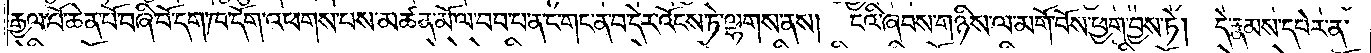རྒྱལ་པོ་ཆེན་པོ་བཞི་པོ་དག་ཁ་དོག་འཕགས་པས་མཚན་མོ་ལ་བབ་པ་ནང་གང་ན་བ་དེར་འོངས་ཏེ་ལྷགས་ནས། ངའི་ཞབས་གཉིས་ལ་མགོ་བོས་ཕྱག་བྱས་ཏེ།  དེ་རྣམས་དཔེར་ན་
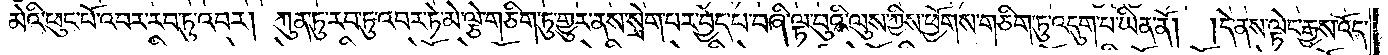མེའི་ཕུང་པོ་འབར་རབ་ཏུ་འབར། ཀུན་ཏུ་རབ་ཏུ་འབར་ཏེ་མེ་ལྕེ་གཅིག་ཏུ་གྱུར་ནས་སྲེག་པར་བྱེད་པ་བཞི་ལྟ་བུའི་ལུས་ཀྱིས་ཕྱོགས་གཅིག་ཏུ་འདུག་པ་ཡིན་ནོ། །དེ་ནས་ལྟེང་རྒྱས་འོད་
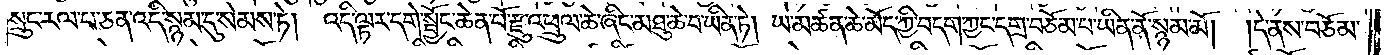སྲུང་རལ་པ་ཅན་འདི་སྙམ་དུ་སེམས་ཏེ། འདི་ལྟར་དགེ་སྦྱོང་ཆེན་པོ་རྫུ་འཕྲུལ་ཆེ་ཞིང་མཐུ་ཆེ་བ་ཡིན་ཏེ། ཡ་མཚན་ཆེ་མོད་ཀྱི་བདག་ཀྱང་དགྲ་བཅོམ་པ་ཡིན་ནོ་སྙམ་མོ། །དེ་ནས་བཅོམ་
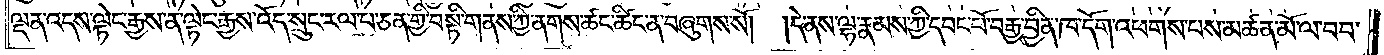ལྡན་འདས་ལྟེང་རྒྱས་ན་ལྟེང་རྒྱས་འོད་སྲུང་རལ་པ་ཅན་གྱི་བསྟི་གནས་ཀྱི་ནགས་ཚང་ཚིང་ན་བཞུགས་སོ།  །དེ་ནས་ལྷ་རྣམས་ཀྱི་དབང་པོ་བརྒྱ་བྱིན་ཁ་དོག་འཕགས་པས་མཚན་མོ་ལ་བབ་
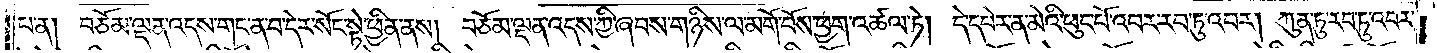པ་ན། བཅོམ་ལྡན་འདས་གང་ན་བ་དེར་སོང་སྟེ་ཕྱིན་ནས།  བཅོམ་ལྡན་འདས་ཀྱི་ཞབས་གཉིས་ལ་མགོ་བོས་ཕྱག་འཚལ་ཏེ། དེ་དཔེར་ན་མེའི་ཕུང་པོ་འབར་རབ་ཏུ་འབར། ཀུན་ཏུ་རབ་ཏུ་འབར་
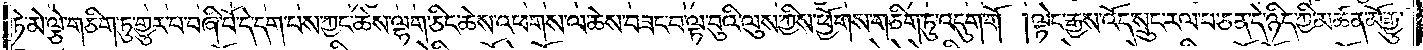ཏེ་མེ་ལྕེ་གཅིག་ཏུ་གྱུར་པ་བཞི་པོ་དེ་དག་པས་ཀྱང་ཆེས་ལྷག་ཅིང་ཆེས་འཕགས་ལ་ཆེས་བཟང་བ་ལྟ་བུའི་ལུས་ཀྱིས་ཕྱོགས་གཅིག་ཏུ་འདུག་གོ །ལྟེང་རྒྱས་འོད་སྲུང་རལ་པ་ཅན་དེ་ཉིད་ཀྱི་མཚན་མོ་རྒྱུ་
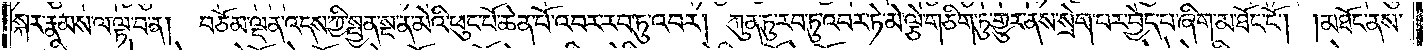སྐར་རྣམས་ལ་ལྟ་བ་ན། བཅོམ་ལྡན་འདས་ཀྱི་སྤྱན་སྔ་ན་མེའི་ཕུང་པོ་ཆེན་པོ་འབར་རབ་ཏུ་འབར། ཀུན་ཏུ་རབ་ཏུ་འབར་ཏེ་མེ་ལྕེ་གཅིག་ཏུ་གྱུར་ནས་སྲེག་པར་བྱེད་པ་ཞིག་མཐོང་ངོ༌། །མཐོང་ནས་
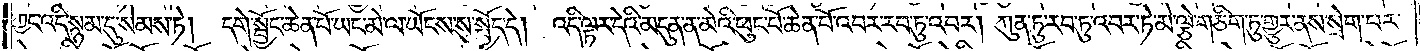ཀྱང་འདི་སྙམ་དུ་སེམས་ཏེ། དགེ་སྦྱོང་ཆེན་པོ་ཡང་མེ་ལ་ཡོངས་སུ་སྤྱོད་དེ། འདི་ལྟར་དེའི་མདུན་ན་མེའི་ཕུང་པོ་ཆེན་པོ་འབར་རབ་ཏུ་འབར། ཀུན་དུ་རབ་ཏུ་འབར་ཏེ་མེ་ལྕེ་གཅིག་ཏུ་གྱུར་ནས་སྲེག་པར་
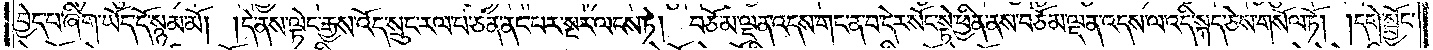བྱེད་པ་ཞིག་ཡོད་དོ་སྙམ་མོ། །དེ་ནས་ལྟེང་རྒྱས་འོད་སྲུང་རལ་པ་ཅན་ནང་པར་སྔར་ལངས་ཏེ། བཅོམ་ལྡན་འདས་གང་ན་བ་དེར་སོང་སྟེ་ཕྱིན་ནས་བཅོམ་ལྡན་འདས་ལ་འདི་སྐད་ཅེས་གསོལ་ཏོ། །དགེ་སྦྱོང་
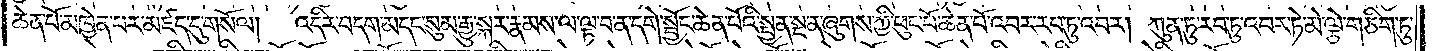ཆེན་པོ་མཁྱེན་པར་མཛད་དུ་གསོལ།   འདིར་བདག་མདང་སུམ་རྒྱུ་སྐར་རྣམས་ལ་ལྟ་བ་ན་དགེ་སྦྱོང་ཆེན་པོའི་སྤྱན་སྔ་ན་ཞུགས་ཀྱི་ཕུང་པོ་ཆེན་པོ་འབར་རབ་ཏུ་འབར། ཀུན་ཏུ་རབ་ཏུ་འབར་ཏེ་མེ་ལྕེ་གཅིག་ཏུ་
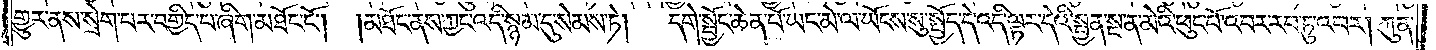གྱུར་ནས་སྲེག་པར་བགྱིད་པ་ཞིག་མཐོང་ངོ༌། །མཐོང་ནས་ཀྱང་འདི་སྙམ་དུ་སེམས་ཏེ།  དགེ་སྦྱོང་ཆེན་པོ་ཡང་མེ་ལ་ཡོངས་སུ་སྤྱོད་དེ་འདི་ལྟར་དེའི་སྤྱན་སྔ་ན་མེའི་ཕུང་པོ་འབར་རབ་ཏུ་འབར། ཀུན་
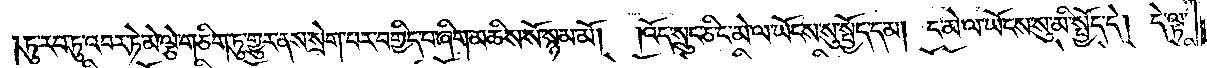།ཏུ་རབ་ཏུ་འབར་ཏེ་མེ་ལྕེ་གཅིག་ཏུ་གྱུར་ནས་སྲེག་པར་བགྱིད་པ་ཞིག་མཆིས་སོ་སྙམ་མོ།  །འོད་སྲུང་ཅི་ང་མེ་ལ་ཡོངས་སུ་སྤྱོད་དམ། ང་མེ་ལ་ཡོངས་སུ་མི་སྤྱོད་དེ། དེ་ལྟ་
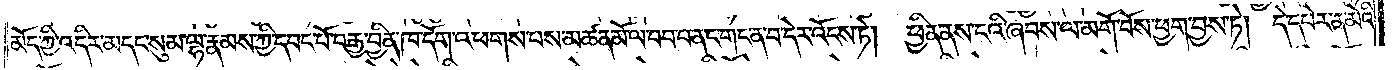མོད་ཀྱི་འདིར་མདང་སུམ་ལྷ་རྣམས་ཀྱི་དབང་པོ་བརྒྱ་བྱིན་ཁ་དོག་འཕགས་པས་མཚན་མོ་ལ་བབ་པ་ནང་གང་ན་བ་དེར་འོངས་ཏེ། ཕྱིན་ནས་ངའི་ཞབས་ལ་མགོ་བོས་ཕྱག་བྱས་ཏེ། དེ་དཔེར་ན་མེའི་
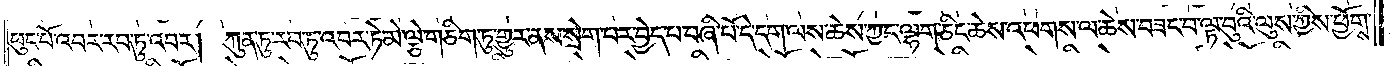ཕུང་པོ་འབར་རབ་ཏུ་འབར། ཀུན་ཏུ་རབ་ཏུ་འབར་ཏེ་མེ་ལྕེ་གཅིག་ཏུ་གྱུར་ནས་སྲེག་པར་བྱེད་པ་བཞི་པོ་དེ་དག་ལས་ཆེས་ཀྱང་ལྷག་ཅིང་ཆེས་འཕགས་ལ་ཆེས་བཟང་བ་ལྟ་བུའི་ལུས་ཀྱིས་ཕྱོགས་
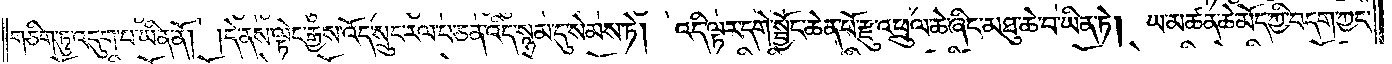གཅིག་ཏུ་འདུག་པ་ཡིན་ནོ། །དེ་ནས་ལྟེང་རྒྱས་འོད་སྲུང་རལ་པ་ཅན་འདི་སྙམ་དུ་སེམས་ཏེ། འདི་ལྟར་དགེ་སྦྱོང་ཆེན་པོ་རྫུ་འཕྲུལ་ཆེ་ཞིང་མཐུ་ཆེ་བ་ཡིན་ཏེ། ཡ་མཚན་ཆེ་མོད་ཀྱི་བདག་ཀྱང་
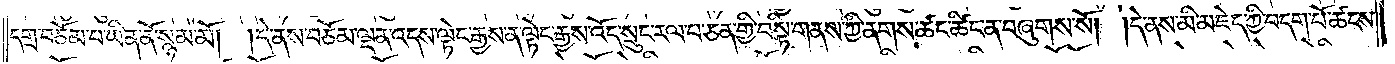དགྲ་བཅོམ་པ་ཡིན་ནོ་སྙམ་མོ། །དེ་ནས་བཅོམ་ལྡན་འདས་ལྟེང་རྒྱས་འོད་སྲུང་རལ་པ་ཅན་གྱི་བསྟི་གནས་ཀྱི་ནགས་ཚང་ཚིང་ན་བཞུགས་སོ། །དེ་ནས་མི་མཇེད་ཀྱི་བདག་པོ་ཚངས་
